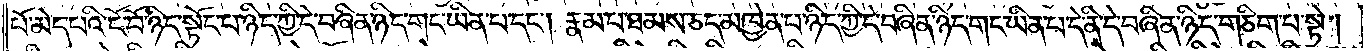པོ་མེད་པའི་ངོ་བོ་ཉིད་སྟོང་པ་ཉིད་ཀྱི་དེ་བཞིན་ཉིད་གང་ཡིན་པ་དང༌། རྣམ་པ་ཐམས་ཅད་མཁྱེན་པ་ཉིད་ཀྱི་དེ་བཞིན་ཉིད་གང་ཡིན་པ་དེ་ནི་དེ་བཞིན་ཉིད་གཅིག་པ་སྟེ།
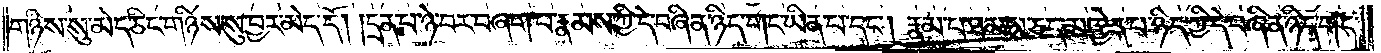གཉིས་སུ་མེད་ཅིང་གཉིས་སུ་བྱར་མེད་དོ། །དྲན་པ་ཉེ་བར་བཞག་པ་རྣམས་ཀྱི་དེ་བཞིན་ཉིད་གང་ཡིན་པ་དང༌། རྣམ་པ་ཐམས་ཅད་མཁྱེན་པ་ཉིད་ཀྱི་དེ་བཞིན་ཉིད་གང་
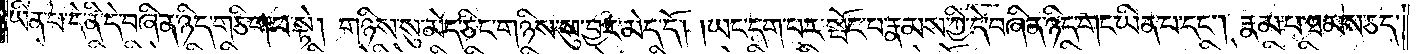ཡིན་པ་དེ་ནི་དེ་བཞིན་ཉིད་གཅིག་པ་སྟེ། གཉིས་སུ་མེད་ཅིང་གཉིས་སུ་བྱར་མེད་དོ། །ཡང་དག་པར་སྦོང་བ་རྣམས་ཀྱི་དེ་བཞིན་ཉིད་གང་ཡིན་པ་དང༌། རྣམ་པ་ཐམས་ཅད་
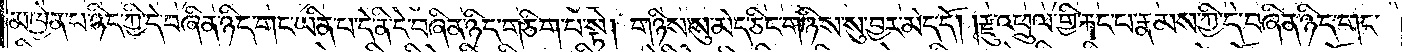མཁྱེན་པ་ཉིད་ཀྱི་དེ་བཞིན་ཉིད་གང་ཡིན་པ་དེ་ནི་དེ་བཞིན་ཉིད་གཅིག་པ་སྟེ། གཉིས་སུ་མེད་ཅིང་གཉིས་སུ་བྱར་མེད་དོ། །རྫུ་འཕྲུལ་གྱི་རྐང་པ་རྣམས་ཀྱི་དེ་བཞིན་ཉིད་གང་
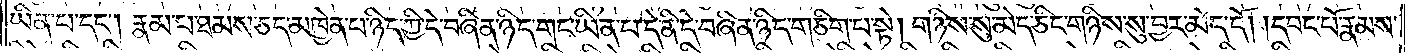ཡིན་པ་དང༌། རྣམ་པ་ཐམས་ཅད་མཁྱེན་པ་ཉིད་ཀྱི་དེ་བཞིན་ཉིད་གང་ཡིན་པ་དེ་ནི་དེ་བཞིན་ཉིད་གཅིག་པ་སྟེ། གཉིས་སུ་མེད་ཅིང་གཉིས་སུ་བྱར་མེད་དོ། །དབང་པོ་རྣམས་
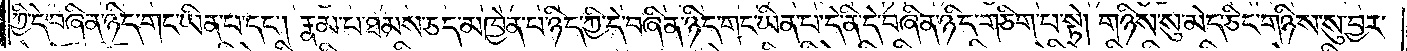ཀྱི་དེ་བཞིན་ཉིད་གང་ཡིན་པ་དང༌། རྣམ་པ་ཐམས་ཅད་མཁྱེན་པ་ཉིད་ཀྱི་དེ་བཞིན་ཉིད་གང་ཡིན་པ་དེ་ནི་དེ་བཞིན་ཉིད་གཅིག་པ་སྟེ། གཉིས་སུ་མེད་ཅིང་གཉིས་སུ་བྱར་
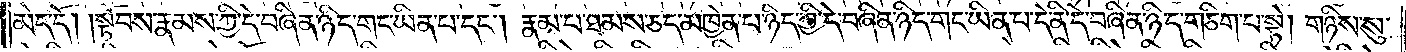མེད་དོ། །སྟོབས་རྣམས་ཀྱི་དེ་བཞིན་ཉིད་གང་ཡིན་པ་དང༌། རྣམ་པ་ཐམས་ཅད་མཁྱེན་པ་ཉིད་ཀྱི་དེ་བཞིན་ཉིད་གང་ཡིན་པ་དེ་ནི་དེ་བཞིན་ཉིད་གཅིག་པ་སྟེ། གཉིས་སུ་
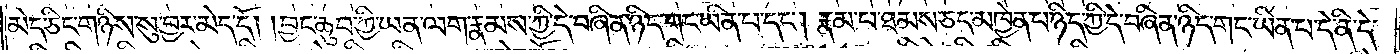མེད་ཅིང་གཉིས་སུ་བྱར་མེད་དོ། །བྱང་ཆུབ་ཀྱི་ཡན་ལག་རྣམས་ཀྱི་དེ་བཞིན་ཉིད་གང་ཡིན་པ་དང༌། རྣམ་པ་ཐམས་ཅད་མཁྱེན་པ་ཉིད་ཀྱི་དེ་བཞིན་ཉིད་གང་ཡིན་པ་དེ་ནི་དེ་
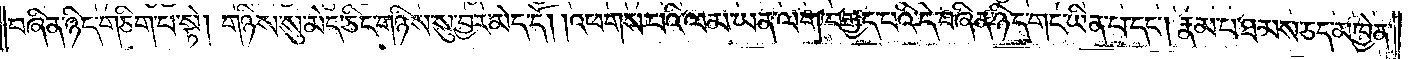བཞིན་ཉིད་གཅིག་པ་སྟེ། གཉིས་སུ་མེད་ཅིང་གཉིས་སུ་བྱར་མེད་དོ། །འཕགས་པའི་ལམ་ཡན་ལག་བརྒྱད་པའི་དེ་བཞིན་ཉིད་གང་ཡིན་པ་དང༌། རྣམ་པ་ཐམས་ཅད་མཁྱེན་
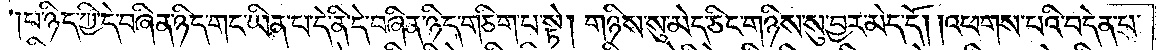པ་ཉིད་ཀྱི་དེ་བཞིན་ཉིད་གང་ཡིན་པ་དེ་ནི་དེ་བཞིན་ཉིད་གཅིག་པ་སྟེ། གཉིས་སུ་མེད་ཅིང་གཉིས་སུ་བྱར་མེད་དོ། །འཕགས་པའི་བདེན་པ་
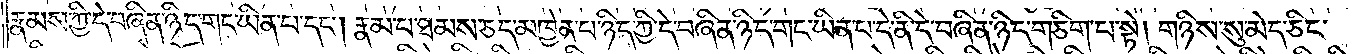རྣམས་ཀྱི་དེ་བཞིན་ཉིད་གང་ཡིན་པ་དང༌། རྣམ་པ་ཐམས་ཅད་མཁྱེན་པ་ཉིད་ཀྱི་དེ་བཞིན་ཉིད་གང་ཡིན་པ་དེ་ནི་དེ་བཞིན་ཉིད་གཅིག་པ་སྟེ། གཉིས་སུ་མེད་ཅིང་
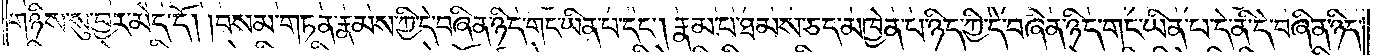གཉིས་སུ་བྱར་མེད་དོ། །བསམ་གཏན་རྣམས་ཀྱི་དེ་བཞིན་ཉིད་གང་ཡིན་པ་དང༌། རྣམ་པ་ཐམས་ཅད་མཁྱེན་པ་ཉིད་ཀྱི་དེ་བཞིན་ཉིད་གང་ཡིན་པ་དེ་ནི་དེ་བཞིན་ཉིད་
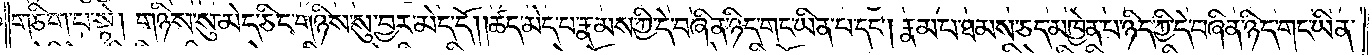གཅིག་པ་སྟེ། གཉིས་སུ་མེད་ཅིང་གཉིས་སུ་བྱར་མེད་དོ། །ཚད་མེད་པ་རྣམས་ཀྱི་དེ་བཞིན་ཉིད་གང་ཡིན་པ་དང༌། རྣམ་པ་ཐམས་ཅད་མཁྱེན་པ་ཉིད་ཀྱི་དེ་བཞིན་ཉིད་གང་ཡིན་
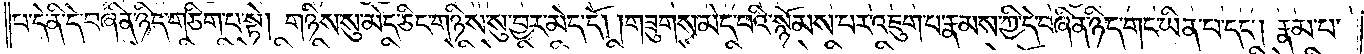པ་དེ་ནི་དེ་བཞིན་ཉིད་གཅིག་པ་སྟེ། གཉིས་སུ་མེད་ཅིང་གཉིས་སུ་བྱར་མེད་དོ། །གཟུགས་མེད་པའི་སྙོམས་པར་འཇུག་པ་རྣམས་ཀྱི་དེ་བཞིན་ཉིད་གང་ཡིན་པ་དང༌། རྣམ་པ་
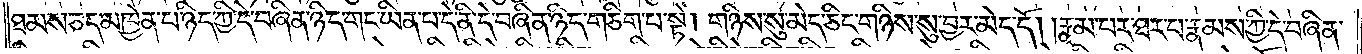ཐམས་ཅད་མཁྱེན་པ་ཉིད་ཀྱི་དེ་བཞིན་ཉིད་གང་ཡིན་པ་དེ་ནི་དེ་བཞིན་ཉིད་གཅིག་པ་སྟེ། གཉིས་སུ་མེད་ཅིང་གཉིས་སུ་བྱར་མེད་དོ། །རྣམ་པར་ཐར་པ་རྣམས་ཀྱི་དེ་བཞིན་
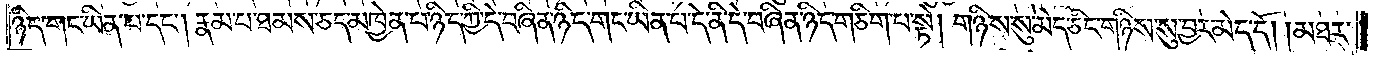ཉིད་གང་ཡིན་པ་དང༌། རྣམ་པ་ཐམས་ཅད་མཁྱེན་པ་ཉིད་ཀྱི་དེ་བཞིན་ཉིད་གང་ཡིན་པ་དེ་ནི་དེ་བཞིན་ཉིད་གཅིག་པ་སྟེ། གཉིས་སུ་མེད་ཅིང་གཉིས་སུ་བྱར་མེད་དོ། །མཐར་
